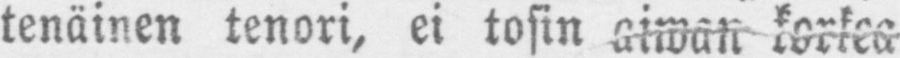tenäinen tenori, ei tosin aiwan korkea
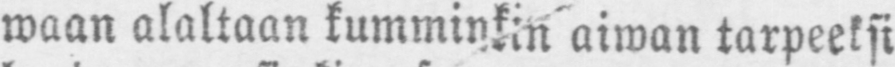waan alaltaan kumminkin aiwan tarpeeksi
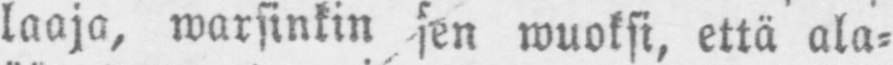laaja, warsinkin sen wuoksi, että ala-
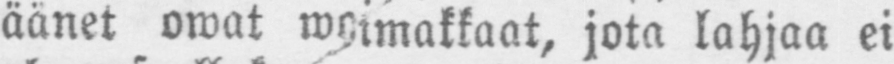äänet owat woimakkaat, jota lahjaa ei
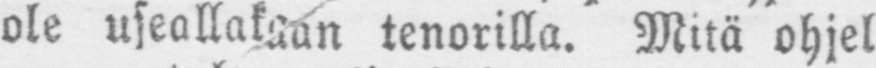ole useallakaan tenorilla. Mitä ohjel-
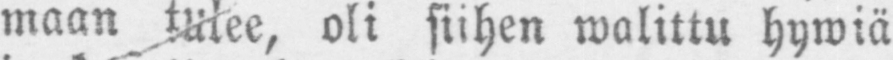maan tulee, oli siihen walittu hywiä
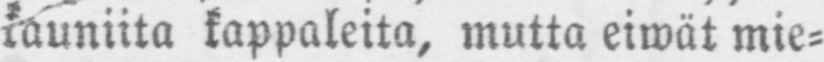kauniita kappaleita, mutta eiwät mie-
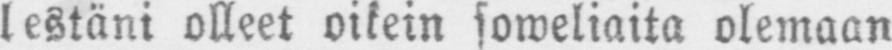lestäni olleet oikein soweliaita olemaan
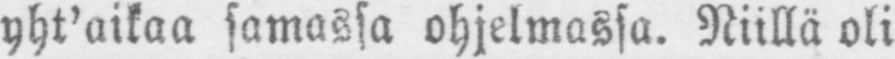yht'aikaa samassa ohjelmassa. Niillä oli
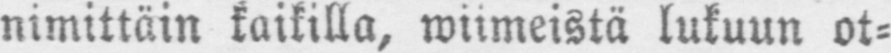nimittäin kaikilla, wiimeistä lukuun ot-
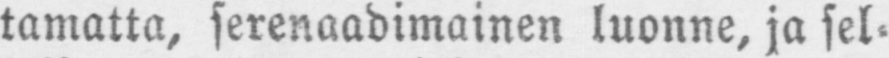tamatta, serenaadimainen luonne, ja sel-
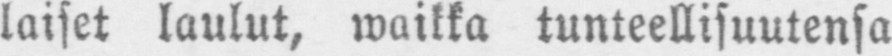laiset laulut, waikka tunteellisuutensa
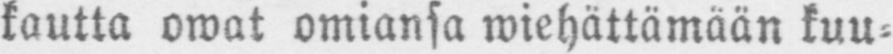kautta owat omiansa wiehättämään kuu-
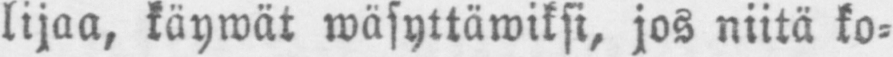lijaa, käywät wäsyttäwiksi, jos niitä ko-
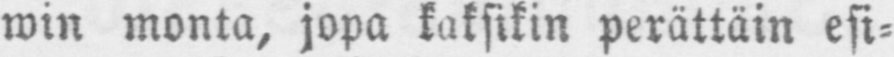win monta, jopa kaksikin perättäin esi-
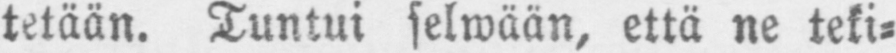tetään. Tuntui selwään, että ne teki-
